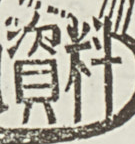資料
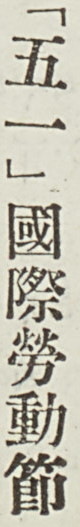「五一」國際勞動節
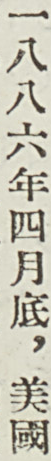一八八六年四月底，美國
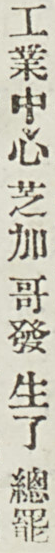工業中心芝加哥發生了總罷
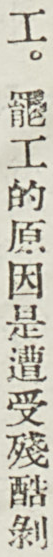工。罷工的原因是遭受殘酷剝
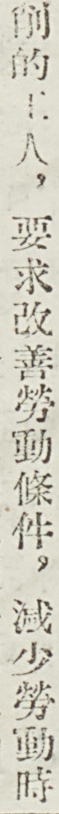削的工人，要求改善勞動條件，減少勞動時
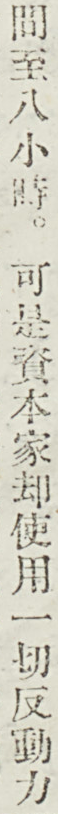間至八小時。可是資本家却使用一切反動力
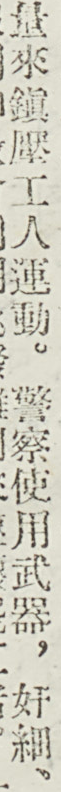量來鎮壓工人運動。警察使用武器，奸細、
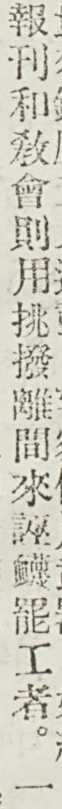報刊和敎會則用挑撥離間來污衊罷工者。一
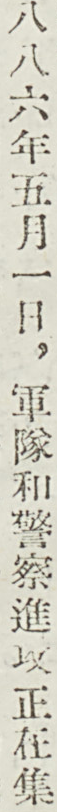八八六年五月一日，軍隊和警察進攻正在集
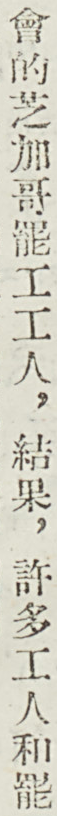會的芝加哥罷工工人，結果，許多工人和罷
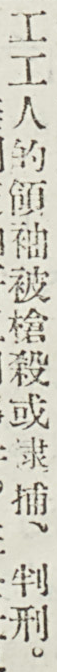工工人的領袖被槍殺或逮捕、判刑。
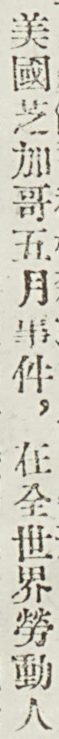美國芝加哥五月事件，在全世界勞動人
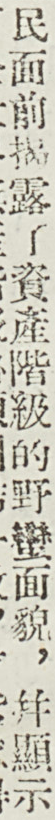民面前揭露了資產階級的野蠻面貌，並顯示
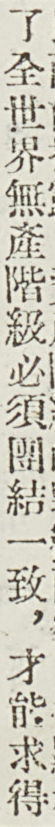了全世界無產階級必須團結一致，才能求得
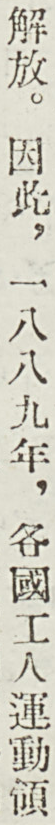解放。因此，一八八九年，各國工人運動領
